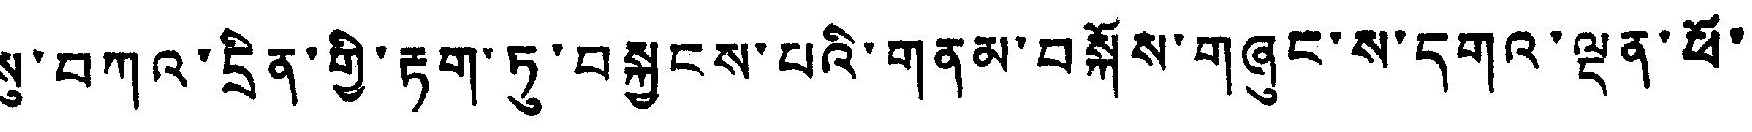སུ་བཀའ་དྲིན་གྱི་རྟག་ཏུ་བསྐྱངས་པའི་གནམ་བསྐོས་གཞུང་ས་དགའ་ལྡན་ཕོ་
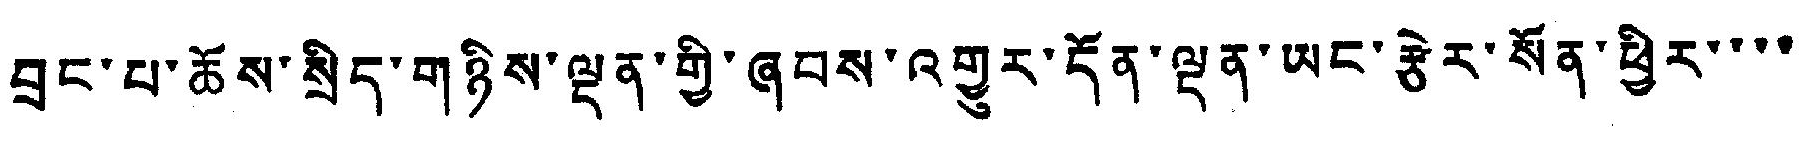བྲང་པ་ཆོས་སྲིད་གཉིས་ལྡན་གྱི་ཞབས་འགྱུར་དོན་ལྡན་ཡང་རྩེར་སོན་ཕྱིར་་་་
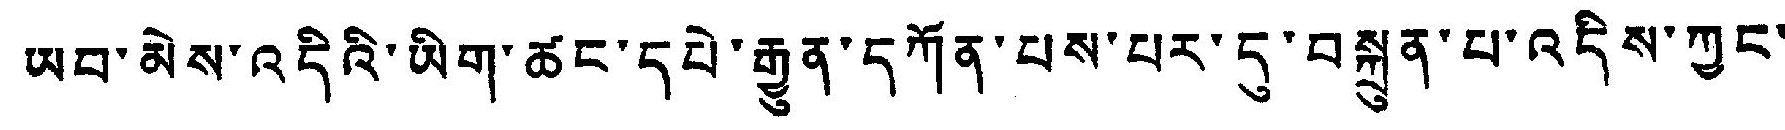ཡབ་མེས་འདིའི་ཡིག་ཚང་དཔེ་རྒྱུན་དཀོན་པས་པར་དུ་བསྐྲུན་པ་འདིས་ཀྱང་
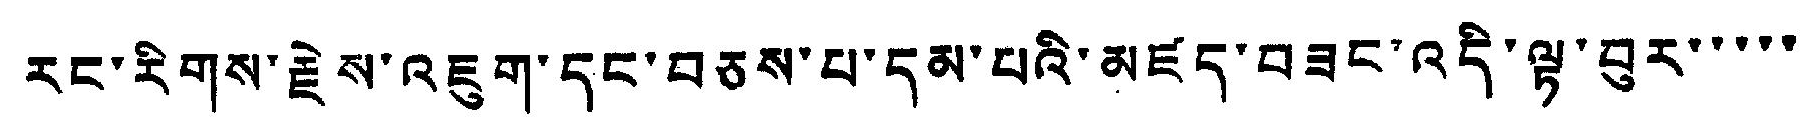རང་རིགས་རྗེས་འཇུག་དང་བཅས་པ་དམ་པའི་མཛད་བཟང་འདི་ལྷ་བུར་་་་་
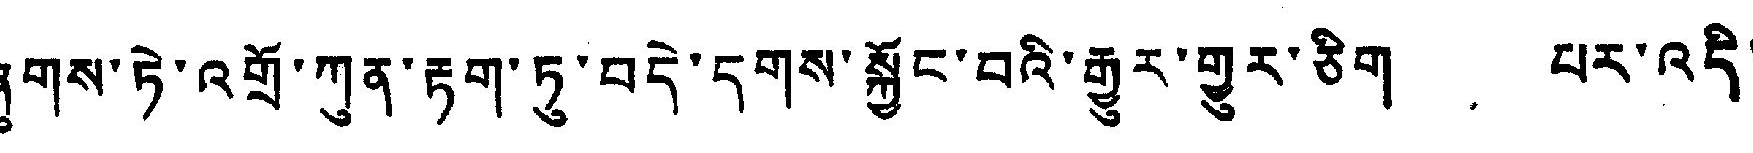ཞུགས་ཏེ་འགྲོ་ཀུན་རྟག་ཏུ་བདེ་དགས་སྐྱོང་བའི་རྒྱུར་གྱུར་ཅིག པར་འདི་
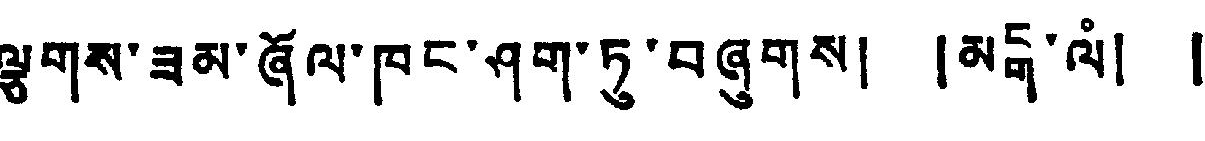ལྕགས་ཟམ་ཞོལ་ཁང་ཤག་ཏུ་བཞུགས། །མངྒ་ལཾ། །
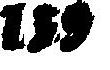159
